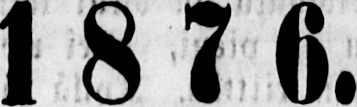1876.
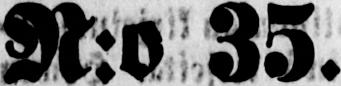N:o 35.
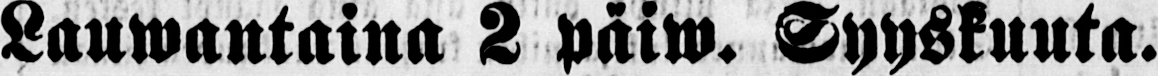Lauwantaina 2 päiw. Syyskuuta.
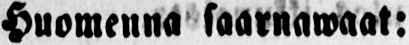Huomenna saarnawaat:
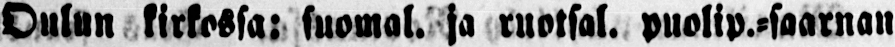Oulun kirkossa: suomal. ja ruotsal. puolip.-saarnan
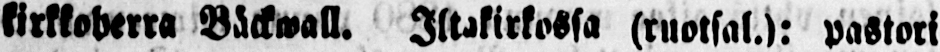kirkkoherra Bäckwall. Iltakirkossa (ruotsal.): pastori
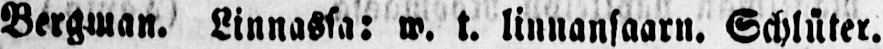Bergman. Linnassa: w. t. linnansaarn. Schlüter.
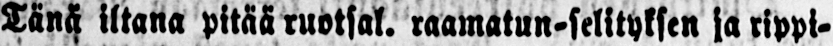Tänä iltana pitää ruotsal. raamatun-selityksen ja rippi-
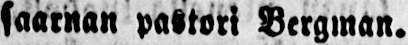saarnan pastori Bergman.
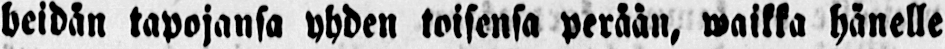heidän tapojansa yhden toisensa perään, waikka hänelle
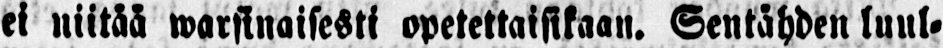ei niitää warsinaisesti opetettaisikaan. Sentähden luul-
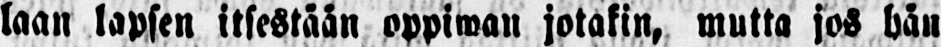laan lapsen itsestään oppiwan jotakin, mutta jos hän
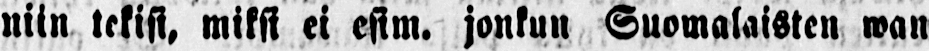niin tekisi, miksi ei esim. jonkun Suomalaisten wan-
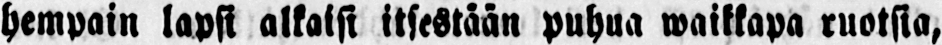hempain lapsi alkaisi itsestään puhua waikkapa ruotsia,
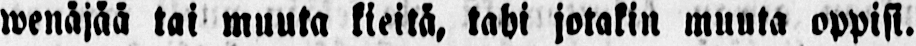wenäjää tai muuta kieitä, tahi jotakin muuta oppisi.
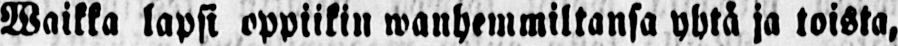Waikka lapsi oppiikin wanhemmiltansa yhtä ja toista,
